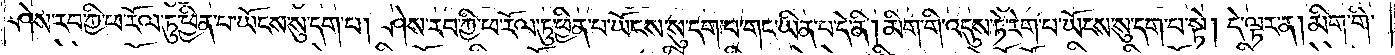ཤེས་རབ་ཀྱི་ཕ་རོལ་ཏུ་ཕྱིན་པ་ཡོངས་སུ་དག་པ། ཤེས་རབ་ཀྱི་ཕ་རོལ་ཏུ་ཕྱིན་པ་ཡོངས་སུ་དག་པ་གང་ཡིན་པ་དེ་ནི། མིག་གི་འདུས་ཏེ་རེག་པ་ཡོངས་སུ་དག་པ་སྟེ། དེ་ལྟར་ན། མིག་གི་
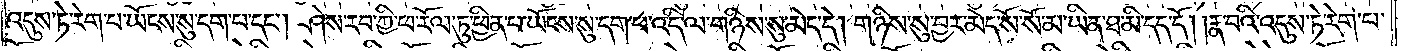འདུས་ཏེ་རེག་པ་ཡོངས་སུ་དག་པ་དང༌། ཤེས་རབ་ཀྱི་ཕ་རོལ་ཏུ་ཕྱིན་པ་ཡོངས་སུ་དག་པ་འདི་ལ་གཉིས་སུ་མེད་དེ། གཉིས་སུ་བྱར་མེད་སོ་སོ་མ་ཡིན་ཐ་མི་དད་དོ། །རྣ་བའི་འདུས་ཏེ་རེག་པ་
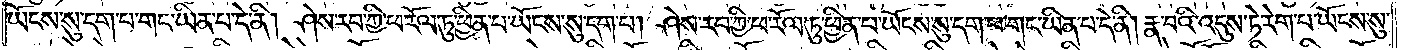ཡོངས་སུ་དག་པ་གང་ཡིན་པ་དེ་ནི། ཤེས་རབ་ཀྱི་ཕ་རོལ་ཏུ་ཕྱིན་པ་ཡོངས་སུ་དག་པ། ཤེས་རབ་ཀྱི་ཕ་རོལ་ཏུ་ཕྱིན་པ་ཡོངས་སུ་དག་པ་གང་ཡིན་པ་དེ་ནི། རྣ་བའི་འདུས་ཏེ་རེག་པ་ཡོངས་སུ་
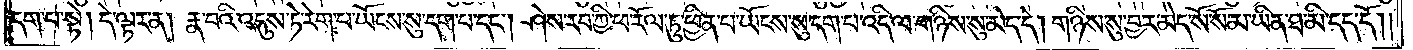དག་པ་སྟེ། དེ་ལྟར་ན། རྣ་བའི་འདུས་ཏེ་རེག་པ་ཡོངས་སུ་དག་པ་དང༌། ཤེས་རབ་ཀྱི་ཕ་རོལ་ཏུ་ཕྱིན་པ་ཡོངས་སུ་དག་པ་འདི་ལ་གཉིས་སུ་མེད་དེ། གཉིས་སུ་བྱར་མེད་སོ་སོ་མ་ཡིན་ཐ་མི་དད་དོ། །
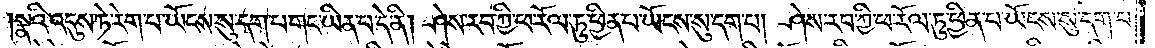སྣའི་འདུས་ཏེ་རེག་པ་ཡོངས་སུ་དག་པ་གང་ཡིན་པ་དེ་ནི། ཤེས་རབ་ཀྱི་ཕ་རོལ་ཏུ་ཕྱིན་པ་ཡོངས་སུ་དག་པ། ཤེས་རབ་ཀྱི་ཕ་རོལ་ཏུ་ཕྱིན་པ་ཡོངས་སུ་དག་པ་
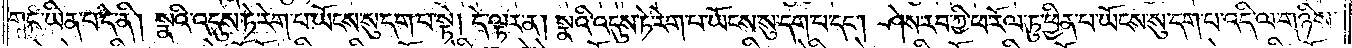གང་ཡིན་པ་དེ་ནི། སྣའི་འདུས་ཏེ་རེག་པ་ཡོངས་སུ་དག་པ་སྟེ། དེ་ལྟར་ན། སྣའི་འདུས་ཏེ་རེག་པ་ཡོངས་སུ་དག་པ་དང༌། ཤེས་རབ་ཀྱི་ཕ་རོལ་ཏུ་ཕྱིན་པ་ཡོངས་སུ་དག་པ་འདི་ལ་གཉིས་
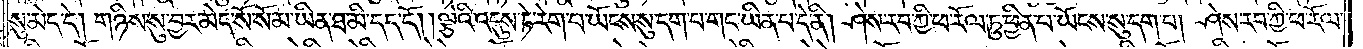སུ་མེད་དེ། གཉིས་སུ་བྱར་མེད་སོ་སོ་མ་ཡིན་ཐ་མི་དད་དོ། །ལྕེའི་འདུས་ཏེ་རེག་པ་ཡོངས་སུ་དག་པ་གང་ཡིན་པ་དེ་ནི། ཤེས་རབ་ཀྱི་ཕ་རོལ་ཏུ་ཕྱིན་པ་ཡོངས་སུ་དག་པ། ཤེས་རབ་ཀྱི་ཕ་རོལ་
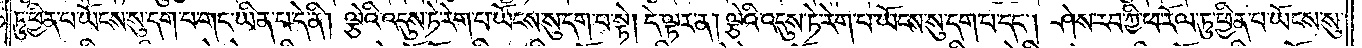ཏུ་ཕྱིན་པ་ཡོངས་སུ་དག་པ་གང་ཡིན་པ་དེ་ནི། ལྕེའི་འདུས་ཏེ་རེག་པ་ཡོངས་སུ་དག་པ་སྟེ། དེ་ལྟར་ན། ལྕེའི་འདུས་ཏེ་རེག་པ་ཡོངས་སུ་དག་པ་དང༌། ཤེས་རབ་ཀྱི་ཕ་རོལ་ཏུ་ཕྱིན་པ་ཡོངས་སུ་
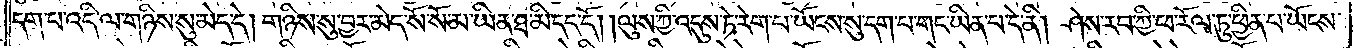དག་པ་འདི་ལ་གཉིས་སུ་མེད་དེ། གཉིས་སུ་བྱར་མེད་སོ་སོ་མ་ཡིན་ཐ་མི་དད་དོ། །ལུས་ཀྱི་འདུས་ཏེ་རེག་པ་ཡོངས་སུ་དག་པ་གང་ཡིན་པ་དེ་ནི། ཤེས་རབ་ཀྱི་ཕ་རོལ་ཏུ་ཕྱིན་པ་ཡོངས་
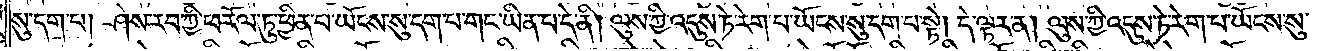སུ་དག་པ། ཤེས་རབ་ཀྱི་ཕ་རོལ་ཏུ་ཕྱིན་པ་ཡོངས་སུ་དག་པ་གང་ཡིན་པ་དེ་ནི། ལུས་ཀྱི་འདུས་ཏེ་རེག་པ་ཡོངས་སུ་དག་པ་སྟེ། དེ་ལྟར་ན། ལུས་ཀྱི་འདུས་ཏེ་རེག་པ་ཡོངས་སུ་
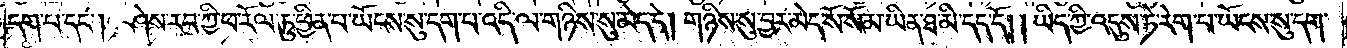དག་པ་དང༌། ཤེས་རབ་ཀྱི་ཕ་རོལ་ཏུ་ཕྱིན་པ་ཡོངས་སུ་དག་པ་འདི་ལ་གཉིས་སུ་མེད་དེ། གཉིས་སུ་བྱར་མེད་སོ་སོ་མ་ཡིན་ཐ་མི་དད་དོ། །ཡིད་ཀྱི་འདུས་ཏེ་རེག་པ་ཡོངས་སུ་དག་
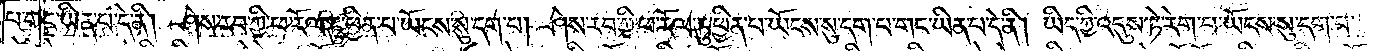པ་གང་ཡིན་པ་དེ་ནི། ཤེས་རབ་ཀྱི་ཕ་རོལ་ཏུ་ཕྱིན་པ་ཡོངས་སུ་དག་པ། ཤེས་རབ་ཀྱི་ཕ་རོལ་ཏུ་ཕྱིན་པ་ཡོངས་སུ་དག་པ་གང་ཡིན་པ་དེ་ནི། ཡིད་ཀྱི་འདུས་ཏེ་རེག་པ་ཡོངས་སུ་དག་པ་
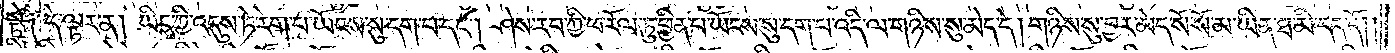སྟེ༑ དེ་ལྟར་ན། ཡིད་ཀྱི་འདུས་ཏེ་རེག་པ་ཡོངས་སུ་དག་པ་དང༌། ཤེས་རབ་ཀྱི་ཕ་རོལ་ཏུ་ཕྱིན་པ་ཡོངས་སུ་དག་པ་འདི་ལ་གཉིས་སུ་མེད་དེ། གཉིས་སུ་བྱར་མེད་སོ་སོ་མ་ཡིན་ཐ་མི་དད་དོ། །
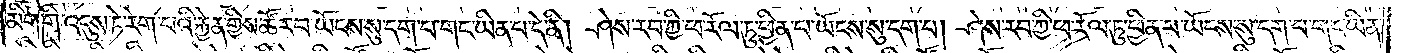མིག་གི་འདུས་ཏེ་རེག་པའི་རྐྱེན་གྱིས་ཚོར་བ་ཡོངས་སུ་དག་པ་གང་ཡིན་པ་དེ་ནི། ཤེས་རབ་ཀྱི་ཕ་རོལ་ཏུ་ཕྱིན་པ་ཡོངས་སུ་དག་པ། ཤེས་རབ་ཀྱི་ཕ་རོལ་ཏུ་ཕྱིན་པ་ཡོངས་སུ་དག་པ་གང་ཡིན་
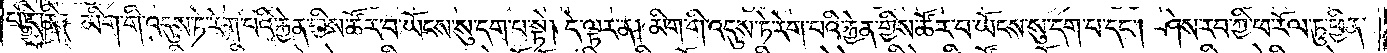པ་དེ་ནི༑ མིག་གི་འདུས་ཏེ་རེག་པའི་རྐྱེན་གྱིས་ཚོར་བ་ཡོངས་སུ་དག་པ་སྟེ། དེ་ལྟར་ན། མིག་གི་འདུས་ཏེ་རེག་པའི་རྐྱེན་གྱིས་ཚོར་བ་ཡོངས་སུ་དག་པ་དང༌། ཤེས་རབ་ཀྱི་ཕ་རོལ་ཏུ་ཕྱིན་
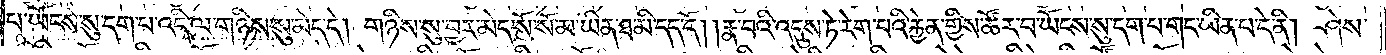པ་ཡོངས་སུ་དག་པ་འདི་ལ་གཉིས་སུ་མེད་དེ། གཉིས་སུ་བྱར་མེད་སོ་སོ་མ་ཡིན་ཐ་མི་དད་དོ། །རྣ་བའི་འདུས་ཏེ་རེག་པའི་རྐྱེན་གྱིས་ཚོར་བ་ཡོངས་སུ་དག་པ་གང་ཡིན་པ་དེ་ནི། ཤེས་
